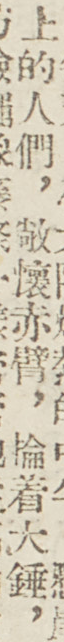上的人們，敞懷赤臂，掄着大錘，
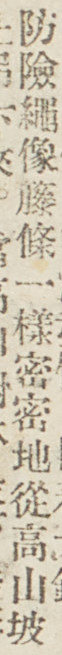防險繩像藤條一樣祕密地從高山坡
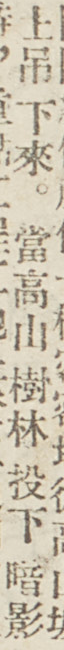上吊下來。當高山樹林投下暗影
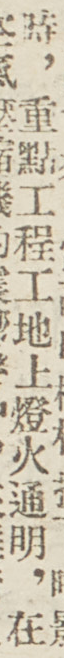時，重點工程工地上燈火通明，在
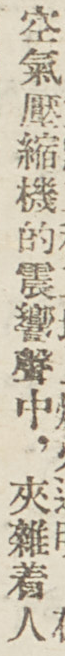空氣壓縮機的震響聲中，夾雜着人
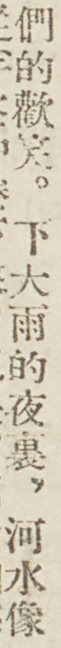們的歡笑。下大雨的夜裏，河水像
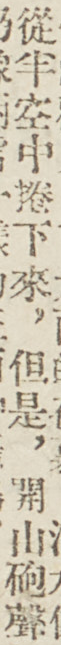從半空中捲下來，但是，開山砲聲
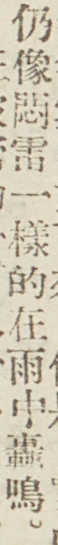仍像悶雷一樣的在雨中轟鳴。
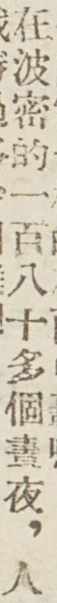在波密的一百八十多個晝夜，人
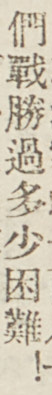們戰勝過多少困難！
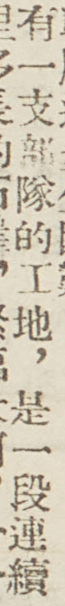有一支部隊的工地，是一段連續
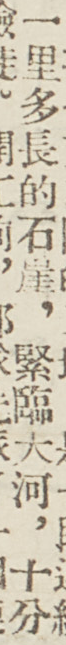一里多長的石崖，緊鄰大河，十分
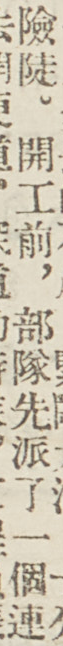險陡。開工前，部隊先派了一個連
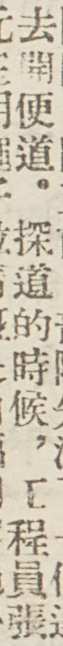去開便道。探道的時候，工程員張
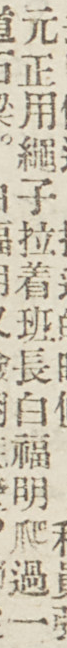元正用繩子拉着班長白福明爬過一
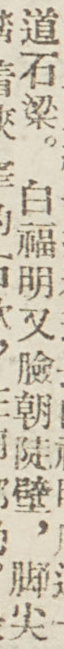道石渠。白福明又臉朝陡壁，腳尖
